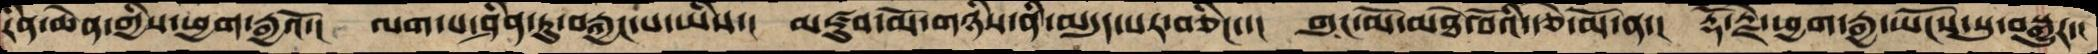རིན་ཆེན་གྱིས་ཕྱག་རྒྱའོ་།  ལག་པ་ཤིན་ཏུ་བརྐྱང་པ་ཡིས་།  མཛུབ་མོ་གཉིས་ནི་མདུད་པར་བཅིང་་།  གུང་མོ་མཐེ་བོའི་རྩེ་མོ་ན་།  རྡོ་རྗེ་ཕྱག་རྒྱ་ཡོངས་སུ་བསྒྱུར་།
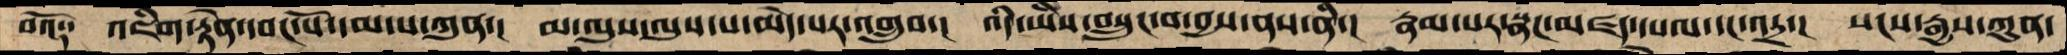བའོ༑  འཇིག་རྟེན་དབང་པོ་དམ་པ་ཀུན་།  མ་ལུས་ལུས་པ་མེད་པར་འགྲུབ་།  འདི་ཡིས་བསྲུང་བ་བྱས་ནས་ནི་།  རྣམ་པར་སྣང་མཛད་དཔལ་དང་འདྲ་།  སངས་རྒྱས་ཀུན་
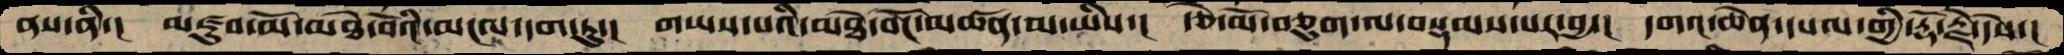ནས་ནི་།  མཛུབ་མོ་མཐེ་བོའི་མངལ་དག་ཏུ་།  གཡས་པའི་མཐེ་བོང་མཚན་མ་ཡིས་།  རྩེ་མོ་བཅུག་ལ་བསྡམས་པར་བྱ་།  དགའ་ཆེན་དཔལ་གྱི་རྡོ་རྗེ་དེས་།
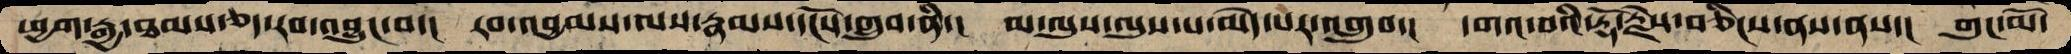ཕྱག་རྒྱ་ཐམས་ཅད་རབ་འབྱུང་བ་།  རབ་འབྱམས་ལས་རྣམས་དངོས་གྲུབ་ནི་།  མ་ལུས་ལུས་པ་མེད་པར་འགྲུབ་། དགའ་བའི་རྡོ་རྗེས་བཅིངས་ནས་ནས་།  གུང་མོ་
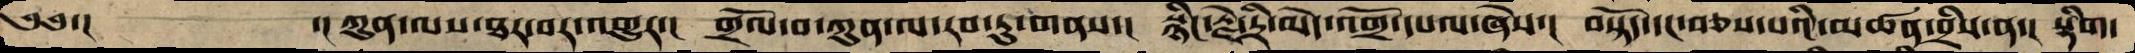༄༅་།      ་།ཀུན་ལས་ཐར་བར་འགྱུར་།  གྲོལ་བ་ཀུན་ལ་རབ་ཏུ་གནས་།  སྙིང་རྗེ་དྲི་མེད་འགྲོ་དཔལ་ཞེས་།  བསྟོད་དང་བཅས་པའི་མཚན་བྲིས་ན་།  སྡིག་
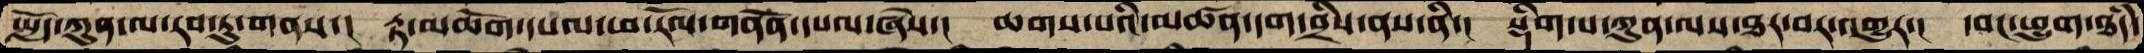སྤྱོད་ཀུན་ལ་རབ་ཏུ་གནས་།  རྟ་མཆོག་དཔལ་ཕ་རོལ་གནོན་དཔལ་ཞེས་།  ཆགས་པའི་མཚན་དག་བྲིས་ནས་ནི་།  སྡིག་པ་ཀུན་ལས་ཐར་བར་འགྱུར་།  དབང་ཕྱུག་ཐཾད་
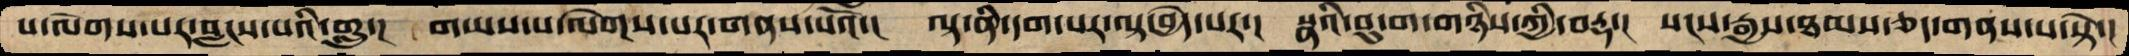པ་ལེགས་པར་བླངས་པའི་གླུ་།  གཡས་པ་ལེགས་པར་གནས་པའོ་།  ལྟ་ནི་དག་པར་ལྟ་བྱེད་པར་།  སྣའི་བུ་ག་གཉིས་ཀྱི་བརྡ་།  སངས་རྒྱས་ཐམས་ཅད་གནས་པ་སྟེ་།
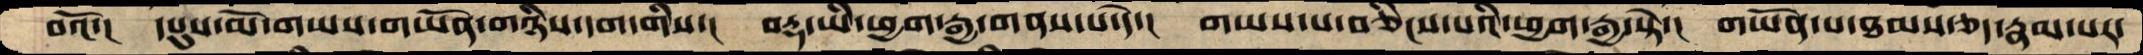བའོ་།  དཔུས་མོ་གཡས་གཡོན་གཉིས་དག་གིས་།  བརྡ་ཡི་ཕྱག་རྒྱ་གནས་པ་དེ་།  གཡས་པ་བཅིངས་པའི་ཕྱག་རྒྱ་སྟེ་།  གཡོན་པ་ཐམས་ཅད་རྣམ་པར་
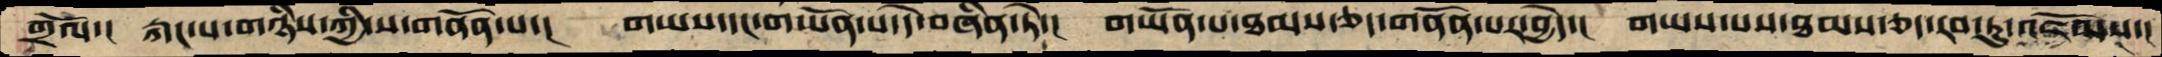གྲོལ་།།  རྐང་པ་གཉིས་ཀྱི་ས་གནོན་པ་།  གཡས་དང་གཡོན་པ་དེ་བཞིན་ཏེ་།  གཡོན་པ་ཐམས་ཅད་གནོན་པར་བྱེད་།  གཡས་པས་ཐམས་ཅད་རབ་ཏུ་འཇོམས་།
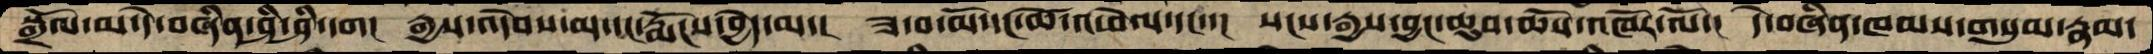སྒྲོལ་མ་དེ་བཞིན་ཤི་ཤི་དག།  རྒྱས་འདེབས་མ་དང་རྨོངས་བྱེད་མ་།  ཟ་བ་མོ་དང་ཚེ་འཕེལ་དང་་།  སངས་རྒྱས་བྱང་ཆུབ་ཆོས་འཁོར་ལོ་།  དེ་བཞིན་ཁམས་གསུམ་རྣམ་
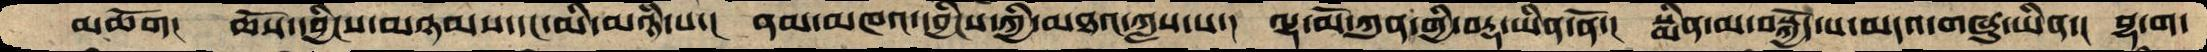མཆོག།  ཆོས་དབྱིངས་མཉམས་དང་མི་མཉཾ་པ་།  ནམ་མཁའ་དབྱིངས་ཀྱི་མཐའ་ཀླས་པ་།  ལྷ་མོ་ཀུན་གྱི་བརྡ་ཡིན་ནོ་།  སྨིན་མ་བསྐྱེད་པ་མདའ་གཞུ་ཡིན་།  བྷ་ག་
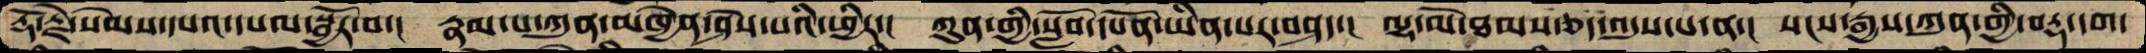རྡོ་རྗེ་སེམས་དཔའ་དཔལ་སྦྱོར་བ་།  རྣམ་པ་ཀུན་མཁྱེན་ཤེས་པའི་ཕྱིར་།  ཀུན་གྱི་སློབ་དཔོན་ཡིན་པར་བཤད་།  ལྷ་མོ་ཐམས་ཅད་འདུས་པ་ན་།  སངས་རྒྱས་ཀུན་གྱི་བརྡ་དག་
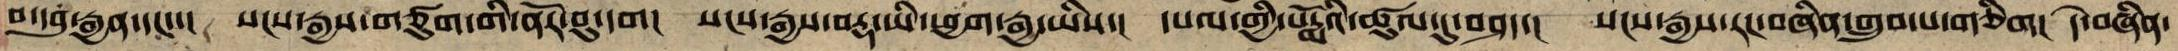བ་དབུ་རྒྱན་དང་་།  སངས་རྒྱས་གཙུག་གི་ནོར་བུ་དག།  སངས་རྒྱས་བརྡ་ཡི་ཕྱག་རྒྱ་ཡིས་།  དཔལ་གྱི་པདྨོའི་ཚུལ་དུ་བཤད་།  སངས་རྒྱས་རང་བཞིན་གྲུབ་པ་གཅིག།  དེ་བཞིན་
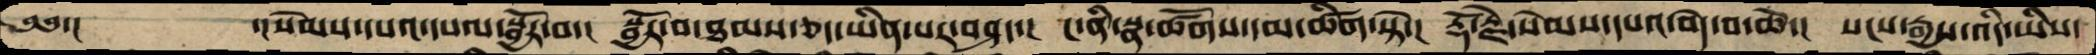༄༅་།     སེམས་དཔའ་དཔལ་སྦྱོར་བ་།  སྦྱོར་བ་ཐམས་ཅད་ཡིན་པར་བཤད་།  ང་ནི་སྣ་ཚོགས་དམ་ཚིག་སྟེ་།  རྡོ་རྗེ་སེམས་དཔའ་བདེ་བ་ཆེ་།  སངས་རྒྱས་འདི་ཡིས་
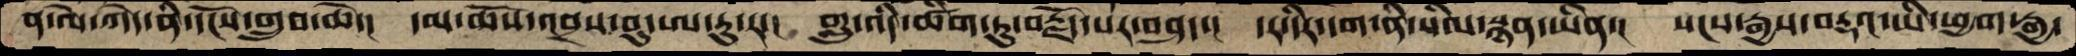ན་ལེ་ཀེ་ནི་དངོས་གྲུབ་ཆེ་།  དམ་ཆོས་འབྲས་བུ་ཨ་རུ་ར་།  གླུ་འདི་ཚིག་ཏུ་བརྗོད་པར་བཤད་།  དར་དིར་དག་ནི་སིལ་སྙན་ཡིན་།  སངས་རྒྱས་བརྡ་ཡི་ཕྱག་རྒྱ་
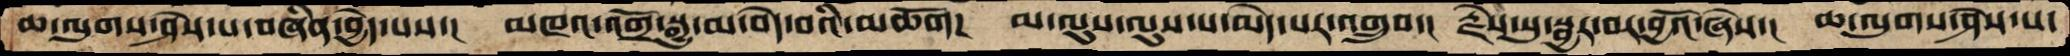ཆ་ལུགས་ཤེས་པ་བཞིན་བྱེད་པས་།  མཁའ་འགྲོ་སྒྱུ་མ་བདེ་བའི་མཆོག།  མ་ལུས་ལུས་པ་མེད་པར་འགྲུབ་།  རྗེས་སུ་སྦྱར་བར་བྱའོ་ཞེས་།  ཆ་ལུགས་ཤེས་པ་
